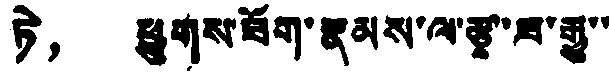ཏེ， ཕྱུགས་ཟོག་རྣམས་ལ་རྩྭ་ཟ་རྒྱུ་་
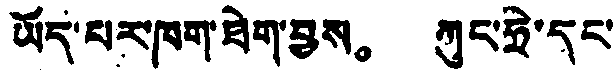ཡོད་པར་ཁག་ཐེག་བྱས。 ཀུང་ཧྲེ་དང་
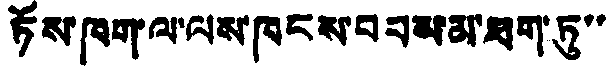ཏོས་ཁག་ལ་ལས་ཁུངས་བབམ་མ་ཐག་ཏུ་་་
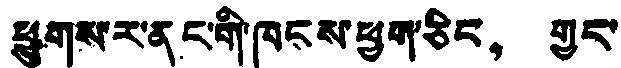ཕྱུགས་ར་ནང་གི་ཁུངས་ཕྱུག་ཅིང， གྱང་
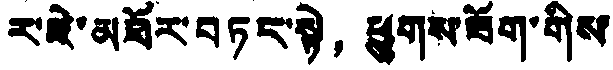ར་ཇེ་མཐོར་བཏང་སྟེ， ཕྱུགས་ཟོག་གིས
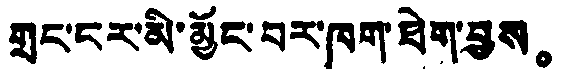གྲང་ངར་མི་མྱོང་བར་ཁག་ཐེག་བྱས。
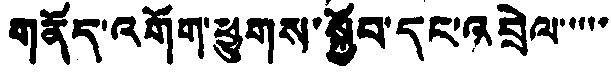གནོད་འགོག་ཕྱུགས་སྐྱོབ་དང་འབྲེལ་་་་་
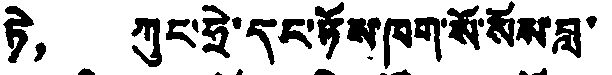ཏེ， ཀུང་ཧྲེ་དང་ཉོས་ཁག་སོ་སོས་བླ་
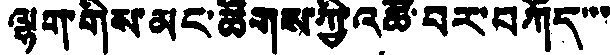ལྷག་གིས་མང་ཚོགས་ཀྱི་འཚོ་བར་བཀོད་་་
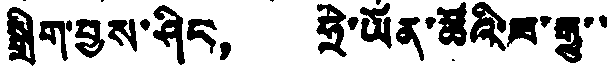སྒྲིག་བྱས་ཤིད， ཧྲི་ཡོན་ཚོའི་ཟ་རྒྱུ་་
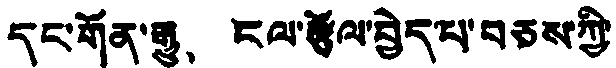དང་གོན་རྒྱུ， ངལ་རྩོལ་བྱེད་པ་བཅས་ཀྱི་
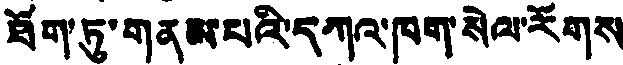ཐོག་ཏུ་གནམ་པའི་དཀའ་ཁག་སེལ་རོགས
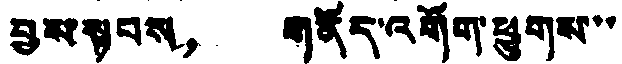བྱས་སྟབས， གནོད་འགོག་ཕྱུགས་་
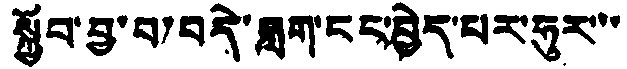སྐྱོབ་བྱ་བ་བདེ་བླག་ངང་བྱེད་པར་ཧུར་་་
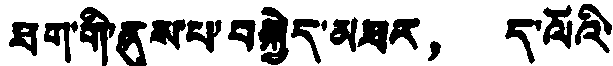ཐག་གི་ནུས་པ་བསྐྱེད་མཐར， ད་ལོའི་
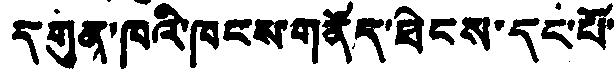དགུན་ཁའི་ཁངས་གནོད་ཐེངས་དང་པོ་
